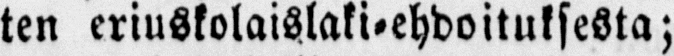ten eriuskolaislaki-ehdoituksesta;
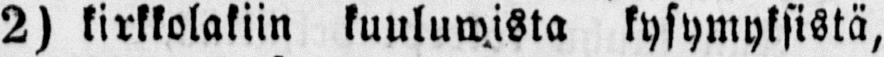2) kirkkolakiin kuuluwista kysymyksistä,
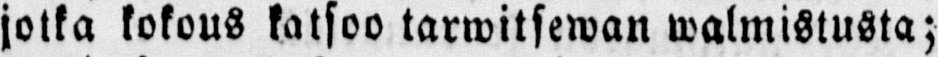jotka kokous katsoo tarwitsewan walmistusta;
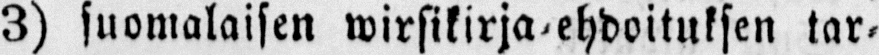3) suomalaisen wirsikirja-ehdoituksen tar-
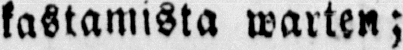kastamista warten;
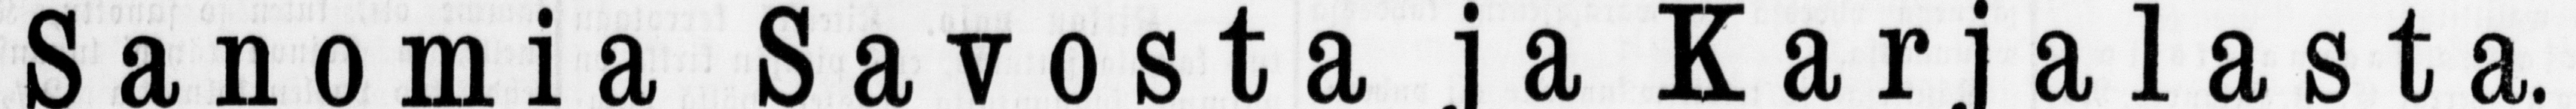Sanomia Savosta ja Karjalasta.
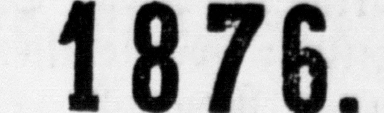1876.
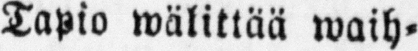Tapio wälittää waih-
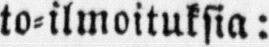to-ilmoituksia:
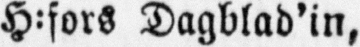H-fors Dagblad’in,
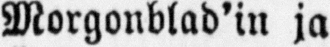Morgonblad’in ja
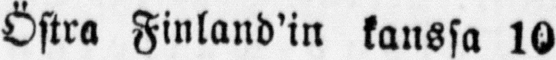Östra Finland’in kanssa 10
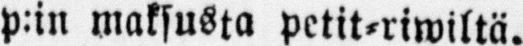p:in maksusta petit-riwiltä.
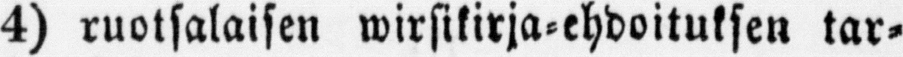4) ruotsalaisen wirsikirja-ehdoituksen tar-
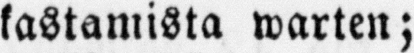kastamista warten;
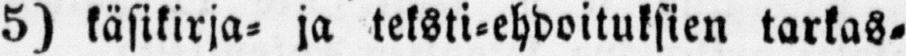5) käsikirja- ja teksti-ehdoituksien tarkas-
